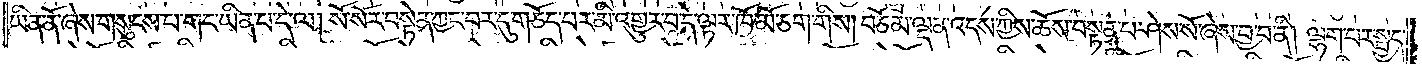ཡིན་ནོ་ཞེས་གསུངས་པ་གང་ཡིན་པ་དེ་ལ། སོ་སོར་བསྟེན་ཀྱང་བར་དུ་གཅོད་པར་མི་འགྱུར་བ་དེ་ལྟར་ཁོ་མོ་ཅག་གིས། བཅོམ་ལྡན་འདས་ཀྱིས་ཆོས་བསྟན་པ་ཤེས་སོ་ཞེས་བྱ་བ་ནི། ལྷག་པར་སྤྱད་
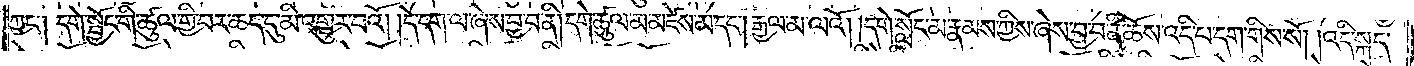ཀྱང༌། དགེ་སྦྱོང་གི་ཚུལ་གྱི་བར་ཆད་དུ་མི་འགྱུར་བའོ། །དེ་དག་ལ་ཞེས་བྱ་བ་ནི། དགེ་ཚུལ་མ་མཛེས་མ་དང༌། རྒྱལ་མ་ལའོ། །དགེ་སློང་མ་རྣམས་ཀྱིས་ཞེས་བྱ་བ་ནི་ཆོས་འདི་པ་དག་གིས་སོ། །འདི་སྐད་
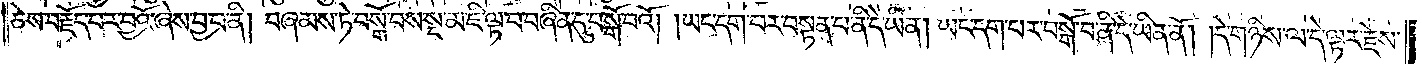ཅེས་བརྗོད་པར་བྱའོ་ཞེས་བྱ་བ་ནི། བཞམས་ཏེ་བསྒོ་བས་སྔ་མ་ཇི་ལྟ་བ་བཞིན་དུ་བསྒོ་བའོ། །ཡང་དག་པར་བསྟན་པ་ནི་དེ་ཡིན། ཡང་དག་པར་བསྒོ་བ་ནི་དེ་ཡིན་ནོ། །དེ་གཉིས་ལ་དེ་ལྟར་རྗེས་
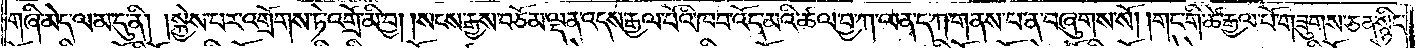གཞི་མེད་ལམ་དུ་ནི། །སྐྱེས་པར་འགྲོགས་ཏེ་འགྲོ་མི་བྱ། །སངས་རྒྱས་བཅོམ་ལྡན་འདས་རྒྱལ་པོའི་ཁབ་འོད་མའི་ཚལ་བྱ་ཀ་ལན་ད་ཀ་གནས་པ་ན་ཞུགས་སོ། །གང་གི་ཚེ་རྒྱལ་པོ་གཟུགས་ཅན་སྙིང་
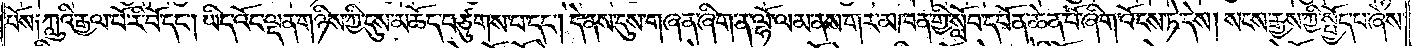པོས༑ ཀླུའི་རྒྱལ་པོ་རི་བོ་དང༌། ཡིད་འོང་ལྡན་གཉིས་ཀྱི་དུས་མཆོད་བཙུགས་པ་དང༌། དེ་ནས་དུས་གཞན་ཞིག་ན་ལྷོ་ལམ་ནས་གར་མཁན་གྱི་སློབ་དཔོན་ཆེན་པོ་ཞིག་འོངས་ཏེ་དེས། སངས་རྒྱས་ཀྱི་སྤྱོད་པ་ཞེས་
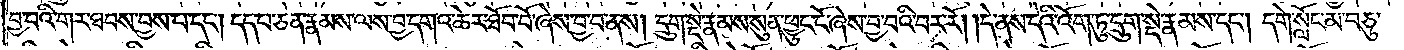བྱ་བའི་གར་ཐབས་བྱས་པ་དང༌། དད་པ་ཅན་རྣམས་ལས་བྱ་དགའ་ཆེར་ཐོབ་བོ་ཞེས་བྱ་བ་ནས། དྲུག་སྡེ་རྣམས་སུན་ཕྱུང་ངོ་ཞེས་བྱ་བའི་བར་རོ། །དེ་ནས་དེའི་འོག་ཏུ་དྲུག་སྡེ་རྣམས་དང༌། དགེ་སློང་མ་བཅུ་
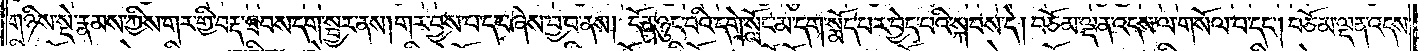གཉིས་སྡེ་རྣམས་ཀྱིས་གར་གྱི་བརྡ་ཐབས་དག་སྦྱར་ནས། གར་བྱས་པ་དང་ཞེས་བྱ་བ་ནས། དོན་ཉུང་བའི་དགེ་སློང་མ་དག་སྨོད་པར་བྱེད་པའི་སྐབས་དེ། བཅོམ་ལྡན་འདས་ལ་གསོལ་པ་དང༌། བཅོམ་ལྡན་འདས་
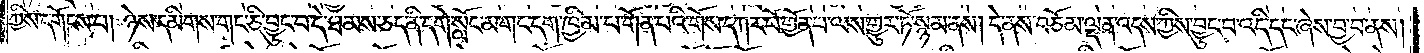ཀྱིས་དགོངས་པ། ཉེས་དམིགས་གང་ཅི་བྱུང་བ་དེ་ཐམས་ཅད་ནི་དགེ་སློང་མ་གང་དག་ཁྱིམ་པ་གོན་པའི་གོས་དཀར་པོ་གྱོན་པ་ལས་གྱུར་ཏོ་སྙམ་ནས། དེ་ནས་བཅོམ་ལྡན་འདས་ཀྱིས་བྱུང་བ་འདི་དང་ཞེས་བྱ་བ་ནས།
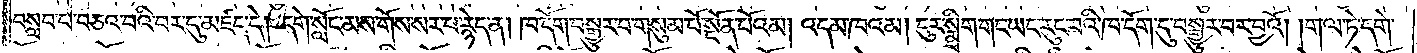བསླབ་པ་བཅའ་བའི་བར་དུ་མཛད་དེ། དགེ་སློང་མས་གོས་སར་པ་རྙེད་ན། ཁ་དོག་བསྒྱུར་བ་གསུམ་པོ་སྔོན་པོའམ། འདམ་ཁའམ། ངུར་སྨྲིག་གང་ཡང་རུང་བའི་ཁ་དོག་དུ་བསྒྱུར་བར་བྱའོ། །གལ་ཏེ་དགེ་
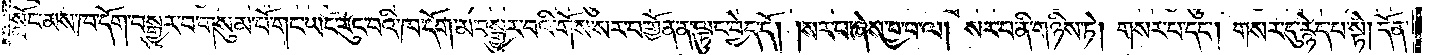སློང་མས་ཁ་དོག་བསྒྱུར་བ་གསུམ་པོ་གང་ཡང་རུང་བའི་ཁ་དོག་མ་བསྒྱུར་བའི་གོས་སར་པ་གྱོན་ན་ལྟུང་བྱེད་དོ། །སར་པ་ཞེས་བྱ་བ་ལ། སར་པ་ནི་གཉིས་ཏེ། གསར་པ་དང༌། གསར་དུ་རྙེད་པ་སྟེ། དོན་
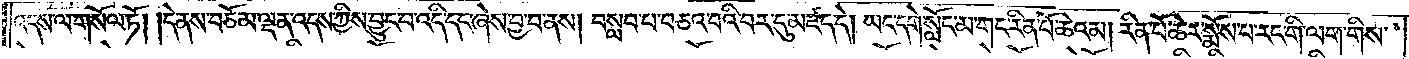འདས་ལ་གསོལ་ཏོ། །དེ་ནས་བཅོམ་ལྡན་འདས་ཀྱིས་བྱུང་བ་འདི་དང་ཞེས་བྱ་བ་ནས། བསླབ་པ་བཅའ་བའི་བར་དུ་མཛད་དེ། ཡང་དགེ་སློང་མ་གང་རིན་པོ་ཆེའམ། རིན་པོ་ཆེར་སྨོས་པ་རང་གི་ལག་གིས་
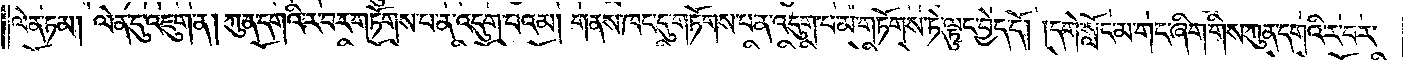ལེན་ཏམ། ལེན་དུ་འཇུག་ན། ཀུན་དགའི་ར་བར་གཏོགས་པ་ན་འདུག་པའམ། གནས་ཁང་དུ་གཏོགས་པ་ན་འདུག་པ་མ་གཏོགས་ཏེ་ལྟུང་བྱེད་དོ། །དགེ་སློང་མ་གང་ཞིག་གིས་ཀུན་དགའི་ར་བར་
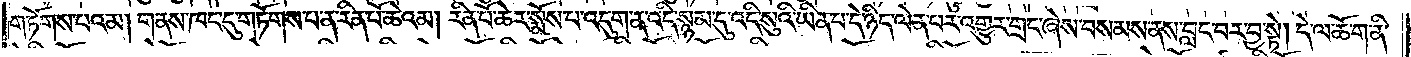གཏོགས་པའམ། གནས་ཁང་དུ་གཏོགས་པ་ན་རིན་པོ་ཆེའམ། རིན་པོ་ཆེར་སྨོས་པ་འདུག་ན་འདི་སྙམ་དུ་འདི་སུའི་ཡིན་པ་དེ་ཉིད་ལེན་པར་འགྱུར་གྲང་ཞེས་བསམས་ནས་བླང་བར་བྱ་སྟེ། དེ་ལ་ཆོ་ག་ནི་
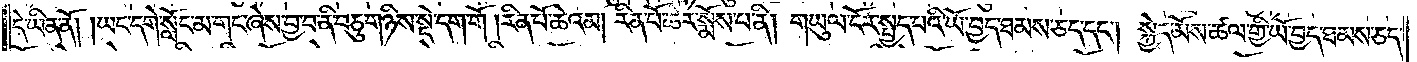དེ་ཡིན་ནོ། །ཡང་དགེ་སློང་མ་གང་ཞེས་བྱ་བ་ནི་བཅུ་གཉིས་སྡེ་དག་གོ །རིན་པོ་ཆེའམ། རིན་པོ་ཆེར་སྨོས་པ་ནི། གཡུལ་ངོར་སྤྱད་པའི་ཡོ་བྱད་ཐམས་ཅད་དང༌། སྐྱེད་མོས་ཚལ་གྱི་ཡོ་བྱད་ཐམས་ཅད་
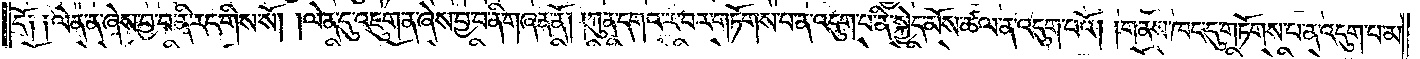དོ༑ ༑ལེན་ན་ཞེས་བྱ་བ་ནི་རང་གིས་སོ། །ལེན་དུ་འཇུག་ན་ཞེས་བྱ་བ་ནི་གཞན་ནོ། །ཀུན་དགའ་ར་བར་གཏོགས་པ་ན་འདུག་པ་ནི་སྐྱེད་མོས་ཚལ་ན་འདུག་པའོ། །གནས་ཁང་དུ་གཏོགས་པ་ན་འདུག་པ་མ་
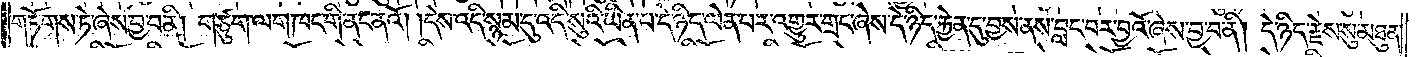གཏོགས་ཏེ་ཞེས་བྱ་བ་ནི། གཙུག་ལག་ཁང་གི་ནང་ནའོ། །དེས་འདི་སྙམ་དུ་འདི་སུའི་ཡིན་པ་དེ་ཉིད་ལེན་པར་འགྱུར་གྲང་ཞེས་དེ་ཉིད་རྐྱེན་དུ་བྱས་ནས་བླང་བར་བྱའོ་ཞེས་བྱ་བ་ནི། དེ་ཉིད་རྗེས་སུ་མཐུན་
